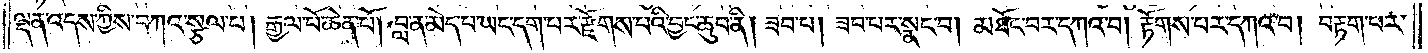ལྡན་འདས་ཀྱིས་བཀའ་སྩལ་པ། རྒྱལ་པོ་ཆེན་པོ། བླ་ན་མེད་པ་ཡང་དག་པར་རྫོགས་པའི་བྱང་ཆུབ་ནི། ཟབ་པ། ཟབ་པར་སྣང་བ། མཐོང་བར་དཀའ་བ། རྟོགས་པར་དཀའ་བ། བརྟག་པར་
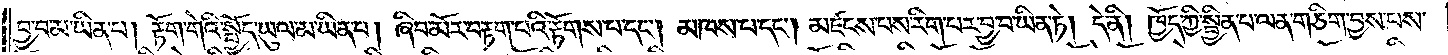བྱ་བ་མ་ཡིན་པ། རྟོག་གེའི་སྤྱོད་ཡུལ་མ་ཡིན་པ། ཞིབ་མོར་བརྟག་པའི་རྟོགས་པ་དང༌། མཁས་པ་དང༌། མཛངས་པས་རིག་པར་བྱ་བ་ཡིན་ཏེ། དེ་ནི། ཁྱོད་ཀྱི་སྦྱིན་པ་ལན་གཅིག་བྱས་པས་
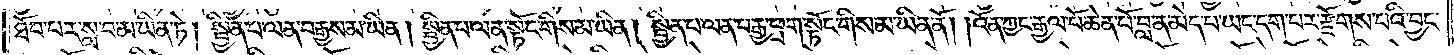ཐོབ་པར་སླ་བ་མ་ཡིན་ཏེ། སྦྱིན་པ་ལན་བརྒྱས་མ་ཡིན། སྦྱིན་པ་ལན་སྟོང་གིས་མ་ཡིན། སྦྱིན་པ་ལན་བརྒྱ་ཕྲག་སྟོང་གིས་མ་ཡིན་ནོ། །འོན་ཀྱང་རྒྱལ་པོ་ཆེན་པོ་བླ་ན་མེད་པ་ཡང་དག་པར་རྫོགས་པའི་བྱང་
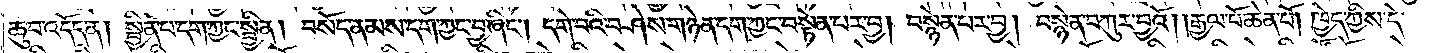ཆུབ་འདོད་ན། སྦྱིན་པ་དག་ཀྱང་སྦྱིན། བསོད་ནམས་དག་ཀྱང་བྱ་ཞིང༌། དགེ་བའི་བཤེས་གཉེན་དག་ཀྱང་བསྟེན་པར་བྱ། བསྙེན་པར་བྱ། བསྙེན་བཀུར་བྱའོ། །རྒྱལ་པོ་ཆེན་པོ། ཁྱེད་ཀྱིས་དེ་
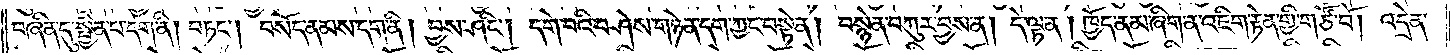བཞིན་དུ་སྦྱིན་པ་དག་ནི། བཏང༌། བསོད་ནམས་དག་ནི། བྱས་ཤིང༌། དགེ་བའི་བཤེས་གཉེན་དག་ཀྱང་བསྟེན། བསྙེན་བཀུར་བྱས་ན། དེ་ལྟ་ན། ཁྱོད་ནམ་ཞིག་ན་འཇིག་རྟེན་གྱི་གཙོ་བོ། འདྲེན་
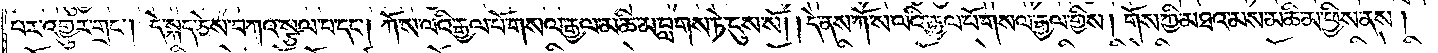པར་འགྱུར་གྲང༌། དེ་སྐད་ཅེས་བཀའ་སྩལ་པ་དང༌། ཀོ་ས་ལའི་རྒྱལ་པོ་གསལ་རྒྱལ་མཆི་མ་བླགས་ཏེ་དུས་སོ། །དེ་ནས་ཀོ་ས་ལའི་རྒྱལ་པོ་གསལ་རྒྱལ་གྱིས། གོས་ཀྱི་མཐའ་མས་མཆི་མ་ཕྱིས་ནས།
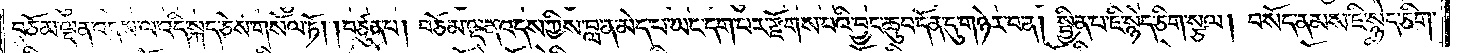བཅོམ་ལྡན་འདས་ལ་འདི་སྐད་ཅེས་གསོལ་ཏོ། །བཙུན་པ། བཅོམ་ལྡན་འདས་ཀྱིས་བླ་ན་མེད་པ་ཡང་དག་པར་རྫོགས་པའི་བྱང་ཆུབ་དོན་དུ་གཉེར་བ་ན། སྦྱིན་པ་ཇི་སྙེད་ཅིག་སྩལ། བསོད་ནམས་ཇི་སྙེད་ཅིག་
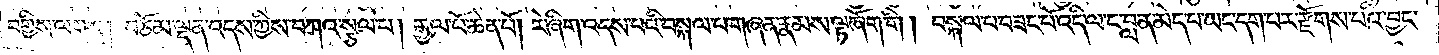བགྱིས་ལགས། བཅོམ་ལྡན་འདས་ཀྱིས་བཀའ་སྩལ་པ། རྒྱལ་པོ་ཆེན་པོ། རེ་ཞིག་འདས་པའི་བསྐལ་པ་གཞན་རྣམས་ལྟ་ཞོག་གི། བསྐལ་པ་བཟང་པོ་འདི་ལ་ང་བླ་ན་མེད་པ་ཡང་དག་པར་རྫོགས་པའི་བྱང་
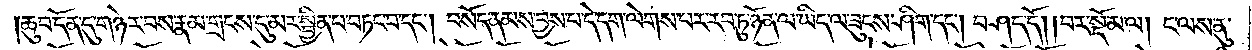།ཆུབ་དོན་དུ་གཉེར་བས་རྣམ་གྲངས་དུ་མར་སྦྱིན་པ་བཏང་བ་དང༌། བསོད་ནམས་བྱས་པ་དེ་དག་ལེགས་པར་རབ་ཏུ་ཉོན་ལ་ཡིད་ལ་ཟུངས་ཤིག་དང༌། བཤད་དོ།    །བར་སྡོམ་ལ། ང་ལས་ནུ་
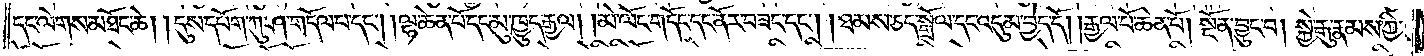དང་ལེགས་མཐོང་ཆེ། །དུས་དཔོག་ཀུ་ཤ་གདོལ་པ་དང༌། །ལྷ་ཆེན་པོ་དང་མུ་ཁྱུད་རྒྱལ། །མེ་ལོང་གདོང་དང་ནོར་བཟང་དང༌། །ཐམས་ཅད་སྒྲོལ་དང་འདུམ་བྱེད་དོ། །རྒྱལ་པོ་ཆེན་པོ། སྔོན་བྱུང་བ། སྐྱེ་རྒུ་རྣམས་ཀྱི་
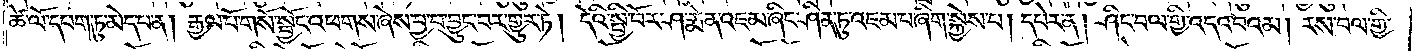ཚེ་ལོ་དཔག་ཏུ་མེད་པ་ན། རྒྱལ་པོ་གསོ་སྦྱོང་འཕགས་ཞེས་བྱ་བ་བྱུང་བར་གྱུར་ཏེ། དེའི་སྤྱི་བོར་ཤ་རྨེན་འཇམ་ཞིང་ཤིན་ཏུ་འཇམ་པ་ཞིག་སྐྱེས་པ། དཔེར་ན། ཤིང་བལ་གྱི་འདའ་བའམ། རས་བལ་གྱི་
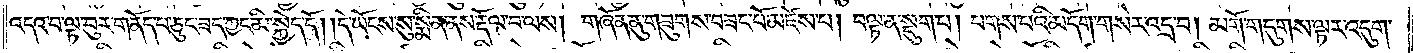འདའ་བ་ལྟ་བུར་གནོད་པ་ཅུང་ཟད་ཀྱང་མི་སྐྱེད་དོ། །དེ་ཡོངས་སུ་སྨིན་ནས་རྡོལ་བ་ལས། གཞོན་ནུ་གཟུགས་བཟང་པོ་མཛེས་པ། བལྟ་ན་སྡུག་པ། པགས་པའི་མདོག་གསེར་འདྲ་བ། མགོ་གདུགས་ལྟར་འདུག་
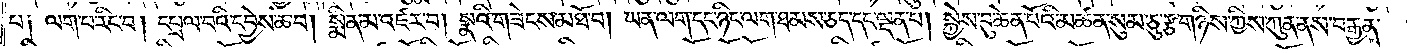པ༑ ལག་པ་རིང་བ། དཔྲལ་བའི་དབྱེས་ཆེ་བ། སྨིན་མ་འཛར་བ། སྣའི་གཟེངས་མཐོ་བ། ཡན་ལག་དང་ཉིང་ལག་ཐམས་ཅད་དང་ལྡན་པ། སྐྱེས་བུ་ཆེན་པོའི་མཚན་སུམ་ཅུ་རྩ་གཉིས་ཀྱིས་ཀུན་ནས་བརྒྱན་
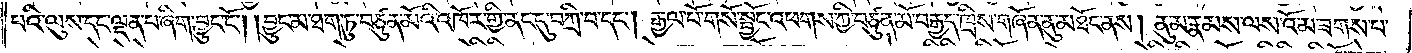པའི་ལུས་དང་ལྡན་པའི་ཞིག་བྱུང་ངོ༌། །བྱུང་མ་ཐག་ཏུ་བཙུན་མོའི་འཁོར་གྱི་ནང་དུ་བཀྲི་བ་དང༌། རྒྱལ་པོ་གསོ་སྦྱོང་འཕགས་ཀྱི་བཙུན་མོ་བརྒྱད་ཁྲིས་གཞོན་ནུ་མཐོང་ནས། ནུ་མ་རྣམས་ལས་འོ་མ་ཟགས་པ་
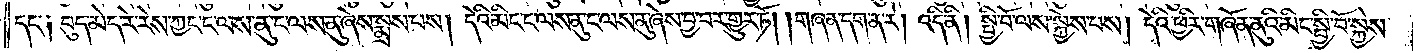དང་༑ བུད་མེད་རེ་རེས་ཀྱང་ལས་ནུ་ང་ལས་ནུ་ཞེས་སྨྲས་པ། དེའི་མིང་ང་ལས་ནུ་ང་ལས་ནུ་ཞེས་བྱ་བར་གྱུར་ཏོ། །གཞན་དག་ན་རེ། འདི་ནི། སྤྱི་བོ་ལས་སྐྱེས་པས། དེའི་ཕྱིར་གཞོན་ནུའི་མིང་སྤྱི་བོ་སྐྱེས་
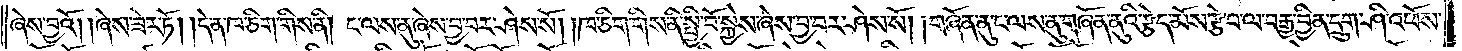ཞེས་བྱའོ། །ཞེས་ཟེར་ཏོ། །དེ་ན་ཁ་ཅིག་གིས་ནི། ང་ལས་ནུ་ཞེས་བྱ་བར་ཤེས་སོ། །ཁ་ཅིག་གིས་ནི་སྤྱི་བོ་སྐྱེས་ཞེས་བྱ་བར་ཤེས་སོ། །གཞོན་ནུ་ང་ལས་ནུ་གཞོན་ནུའི་རྩེད་མོས་རྩེ་བ་ལ་བརྒྱ་བྱིན་དྲུག་ཤི་འཕོས་
